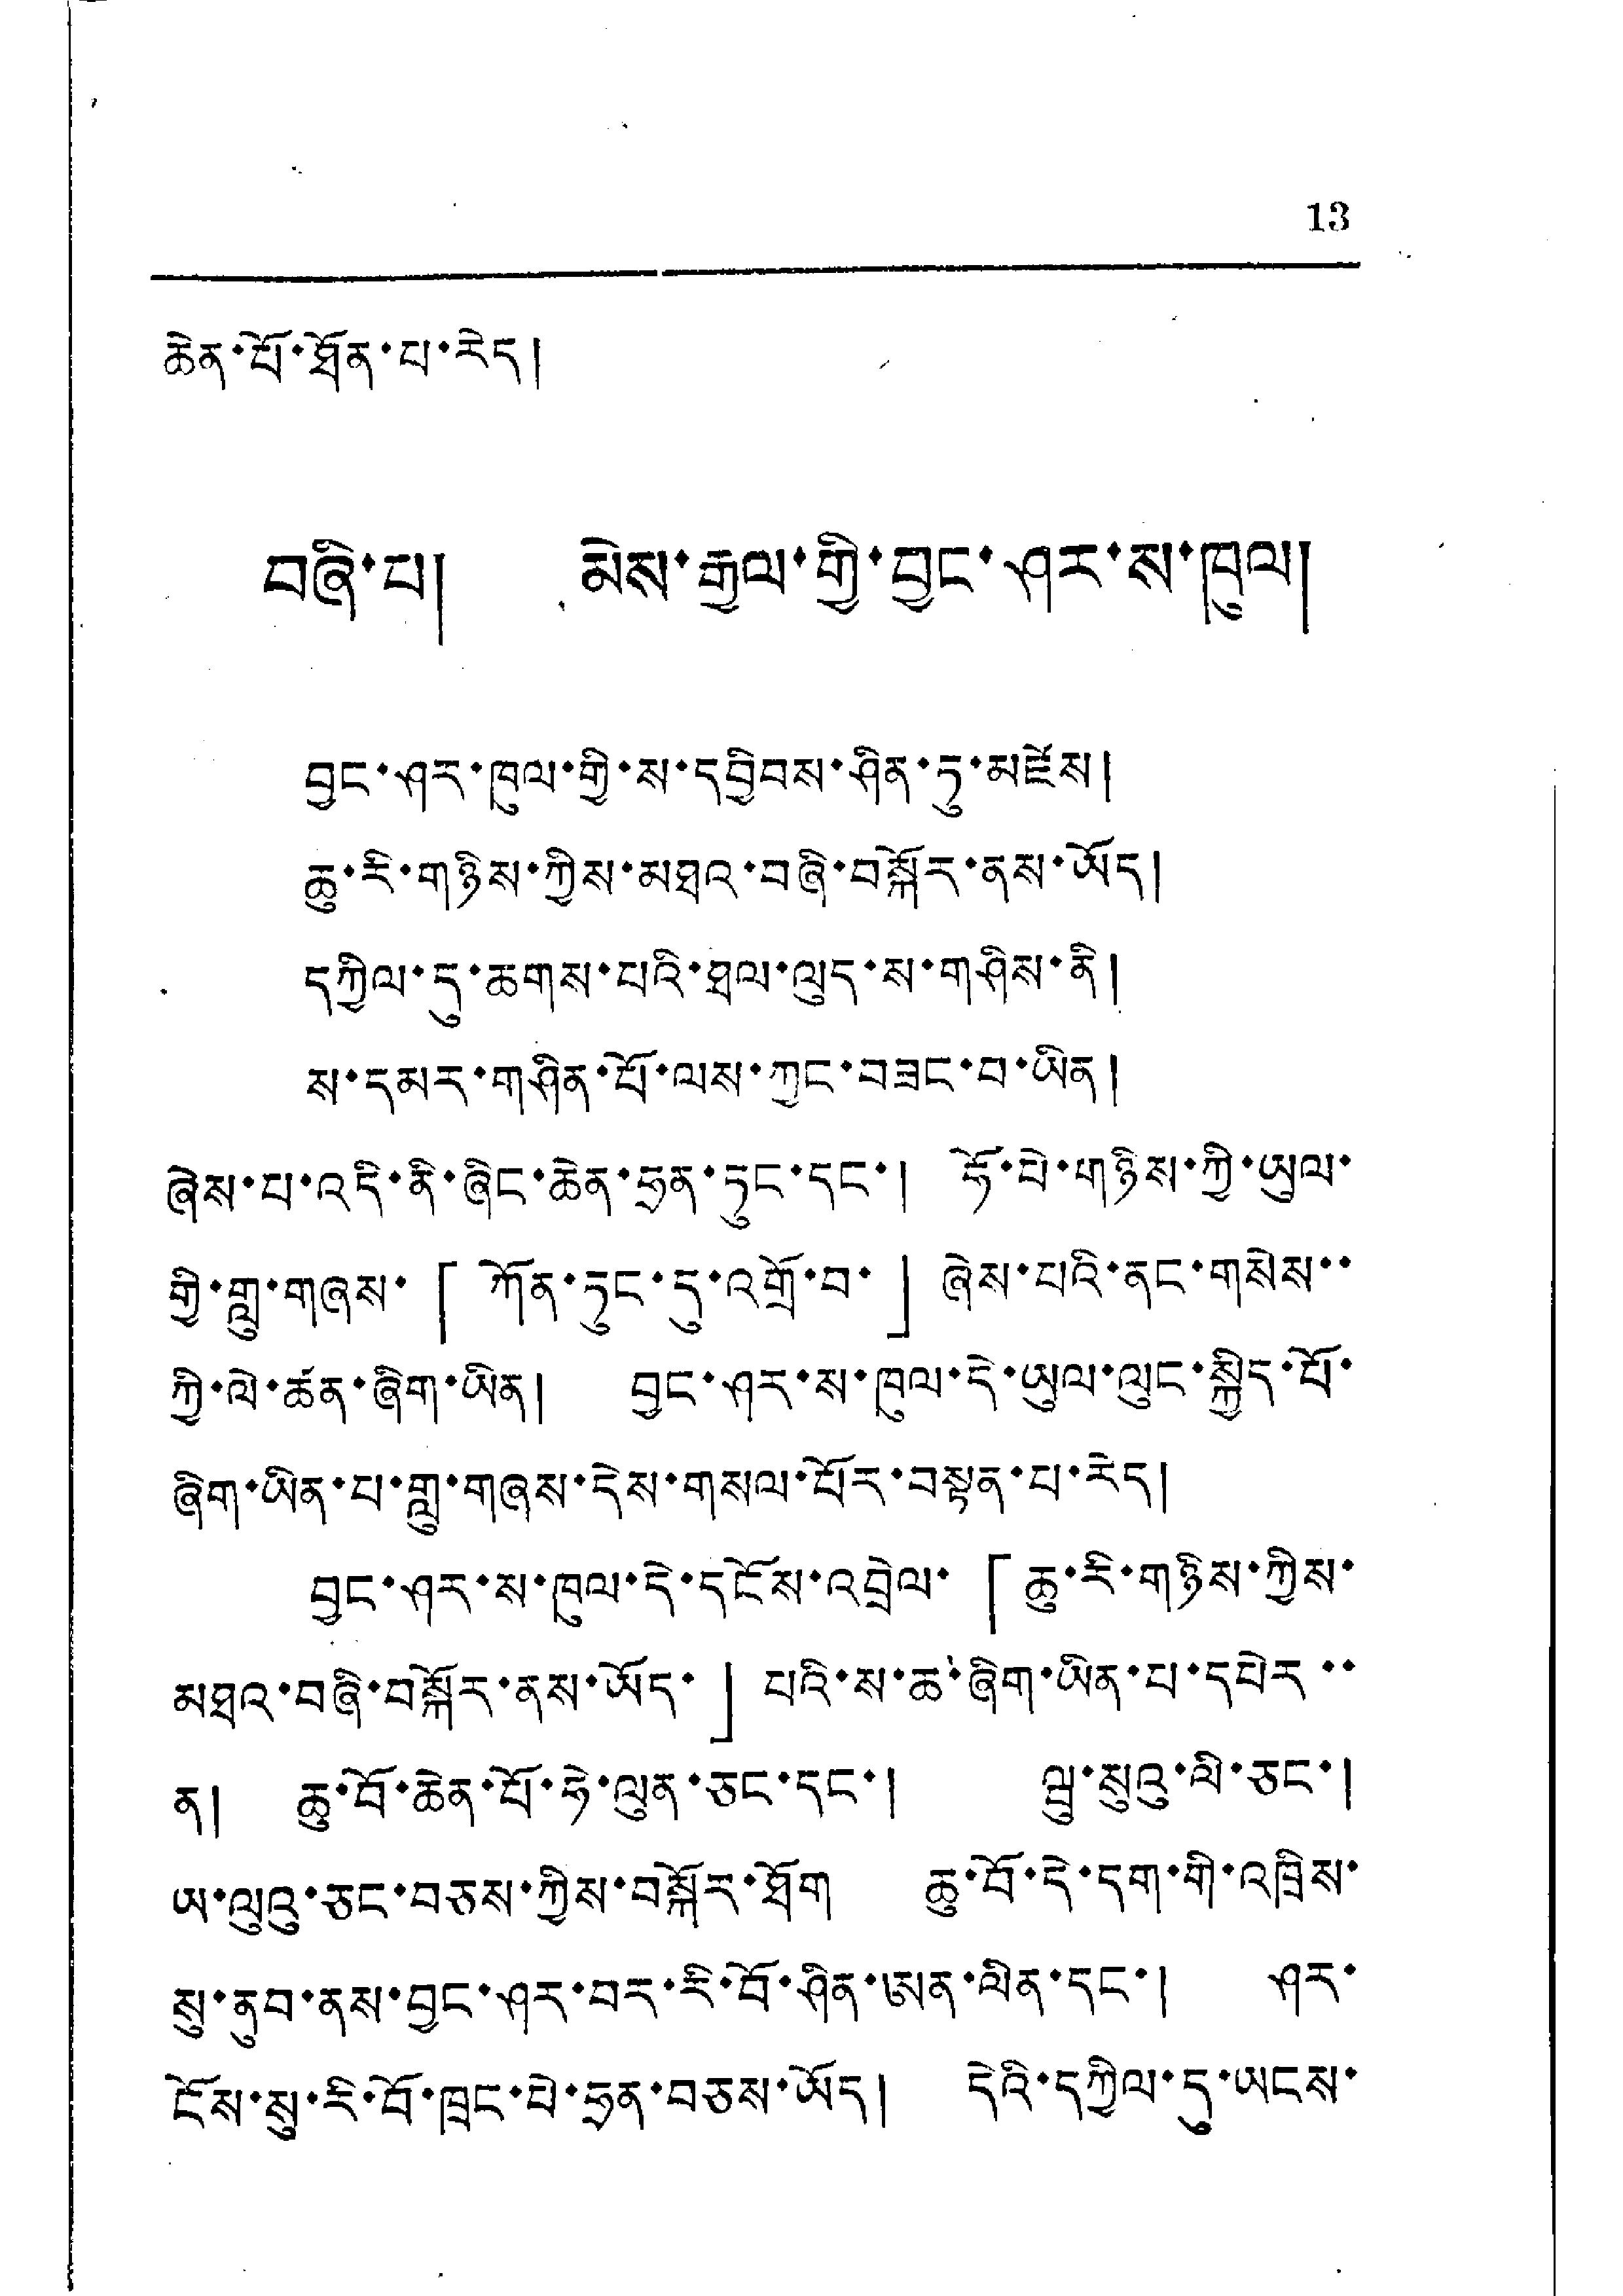13
ཆེན་པོ་ཐོན་པ་རེད།
བཞི་པ། མེས་རྒྱལ་གྱི་བྱང་ཤར་ས་ཁུལ།
བྱང་ཤར་ཁུལ་གྱི་ས་དབྱིབས་ཤིན་ཏུ་མཛེས།
ཆུ་རི་གཉིས་ཀྱིས་མཐའ་བཞི་བསྐོར་ནས་ཡོད།
དཀྱིལ་དུ་ཆགས་པའི་ཐལ་ལུད་ས་གཤིས་ནི།
ས་དམར་གཤིན་པོ་ལས་ཀྱང་བཟང་པ་ཡིན།
ཞེས་པ་འདི་ནི་ཞིང་ཆེན་ཧྲན་ཏུང་དང་། ཧོ་པེ་གཉིས་ཀྱི་ཡུལ་
གྱི་གླུ་གཞས་「ཀོན་ཏུང་དུ་འགྲོ་བ་」ཞེས་པའི་ནང་གསེས་་
ཀྱི་ལེ་ཚན་ཞིག་ཡིན། བྱང་ཤར་ས་ཁུལ་དེ་ཡུལ་ལུང་སྐྱིད་པོ་
ཞིག་ཡིན་པ་གླ་གཞས་དེས་གསལ་པོར་བསྟན་པ་རེད།
བྱང་ཤར་ས་ཁུལ་དེ་དངོས་འབྲེལ་「ཆུ་རི་གཉིས་ཀྱིས་
མཐའ་བཞི་བསྐོར་ནས་ཡོད་」པའི་ས་ཆ་ཞིག་ཡིན་པ་དཔེར་་
ན། ཆུ་བོ་ཆེན་པོ་ཧེ་ལུན་ཅང་དང་། ཝུ་སུའུ་ལི་ཅང་།
ཡ་ལུའུ་ཅང་བཅས་ཀྱིས་བསྐོར་ཐོག ཆུ་བོ་དེ་དག་གི་འཁྲིས་
སུ་ནུབ་ནས་བྱང་ཤར་བར་རི་བོ་ཤིན་ཨན་ལིན་དང་། ཤར་
ངོས་སུ་རི་བོ་ཁྲང་པེ་ཧྲན་བཅས་ཡོད། དེའི་དཀྱིལ་དུ་ཡངས་
